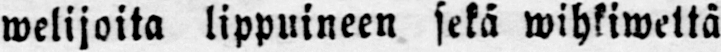welijoita lippuineen sekä wihkiwettä
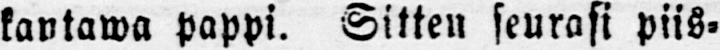kantawa pappi. Sitten seurasi piis-
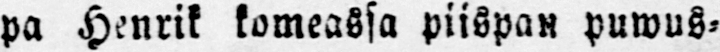pa Henrik komeassa piispan puwus-
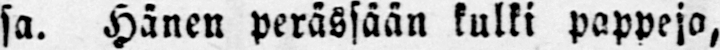sa. Hänen perässään kulki pappeja,
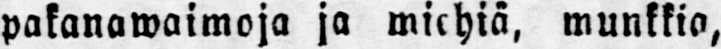pakanawaimoja ja miehiä, munkkia,
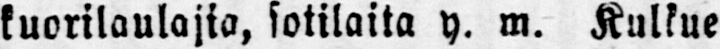kuorilaulajia, sotilaita y. m. Kulkue
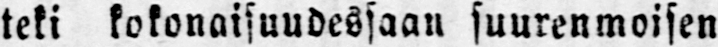teki kokonaisuudessaan suurenmoisen
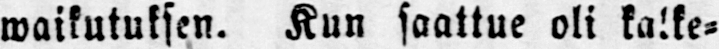waikutuksen. Kun saattue oli kulke-
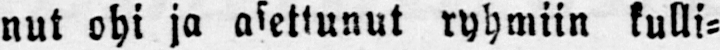nut ohi ja asettunut ryhmiin kulli-
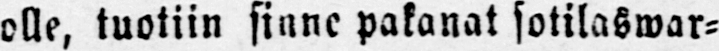olle, tuotiin sinne pakanat sotilaswar-
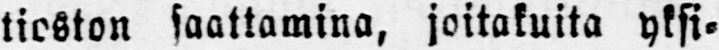tioston saattamina, joitakuita yksi-
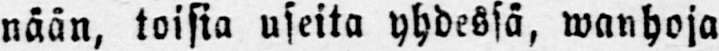nään, toisia useita yhdessä, wanhoja
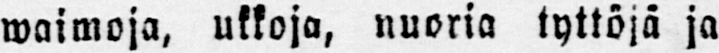waimoja, ukkoja, nuoria tyttöjä ja
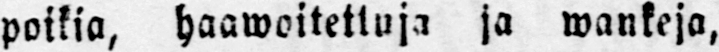poikia, haawoitettuja ja wankeja,
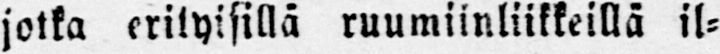jotka erityisillä ruumiinliikkeillä il-
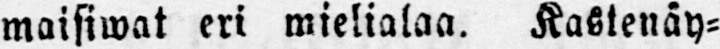maisiwat eri mielialaa. Kastenäy-
